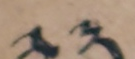༢༣
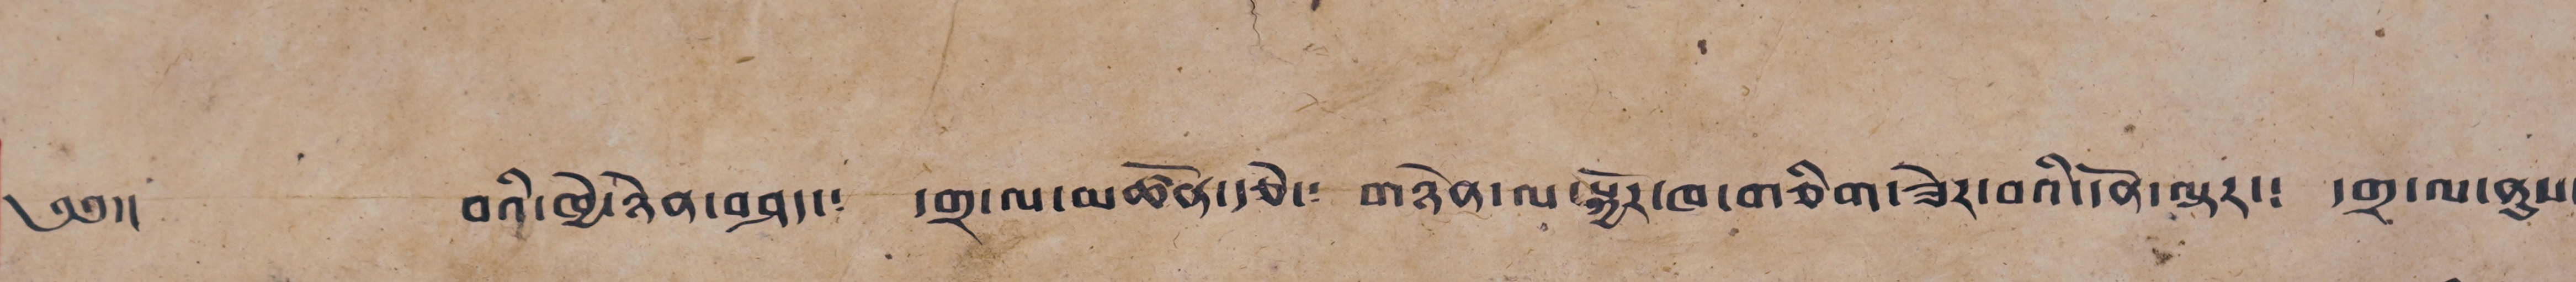༄༅།། བའི་ཁྱེ་ཉེན་བཤད་༴ དགྲ་ལ་མཚོན་རྩེ་༴ གཉེན་ལ་སྐྱོར་ཁ་གཅིག་ཟེར་བའི་དོན་ལྟར་༴ དགྲ་ལ་ནུས་
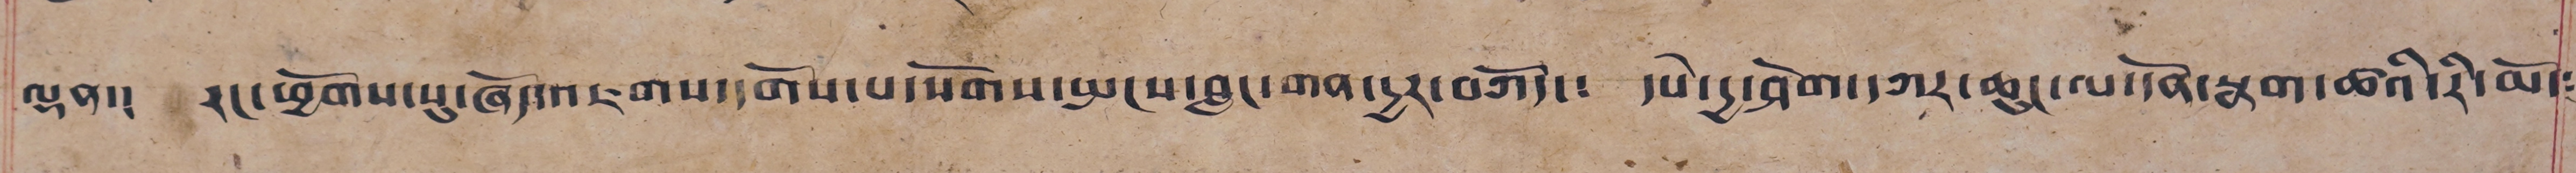ལྡན་༴ རང་ཕྱོགས་སུ་ཞོད་འཇགས་དགོས་པ་སོགས་སྤངས་བླང་གན་དྱར་བཀོད་༴ དཔེ་དྱ་ཤོག་དཀར་ཆུང་ལ་དོན་སྣག་ཚའི་རི་མོ་༴
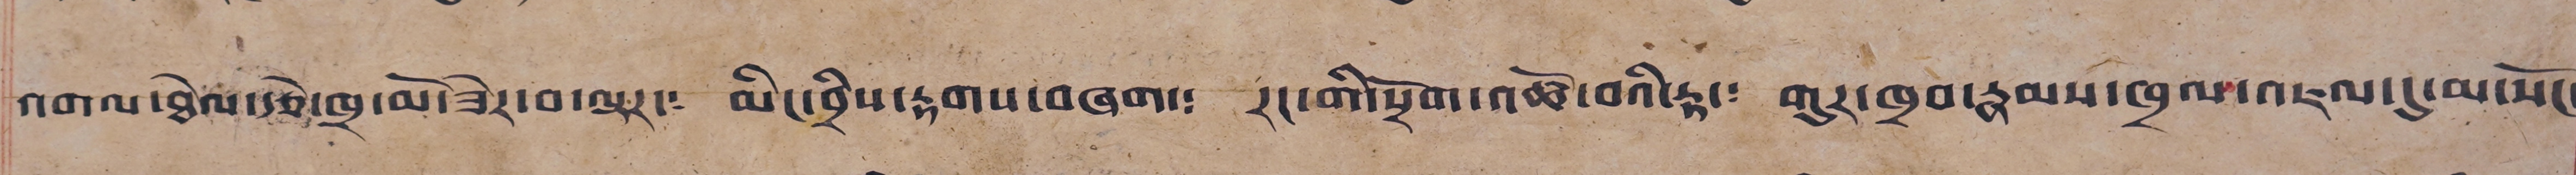འགལ་ཐེལ་རྩེ་ཁྲ་མོ་ཟེར་བ་ལྟར་༴ མིང་བྲིས་རྟགས་བཞག་༴ རང་གི་སྲོག་འཚོ་བའི་རྟ་༴ གུར་ཁྲབ་རྣམས་ཁྲལ་འཇལ་དུ་མ་ཡོང་
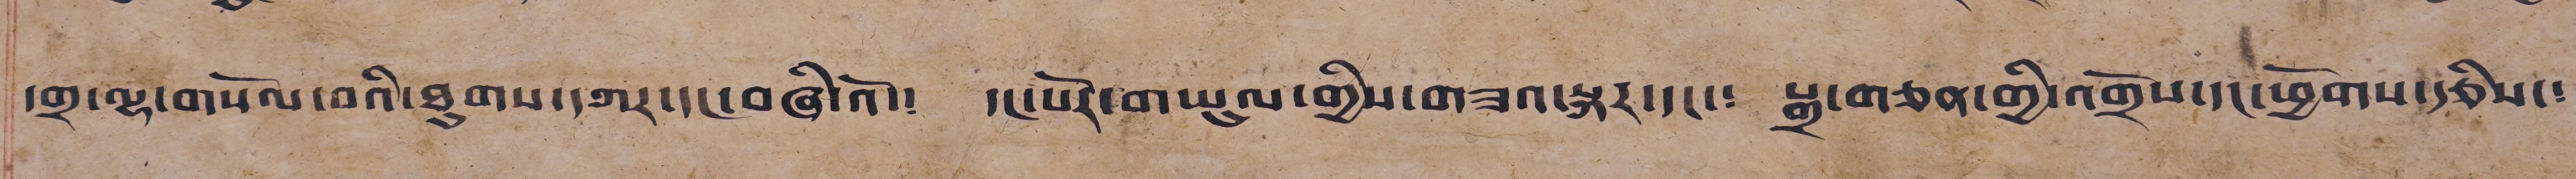དགྲ་ལྷ་གསོལ་བའི་ཐུགས་དཀར་དང་བཞིའོ་། དང་པོར་གཡུལ་གྱིས་གཟའ་སྐར་དང་༴ སྒྲ་གཅན་གྱི་འགྲོས་དང་ཕྱོགས་རྩིས་༴
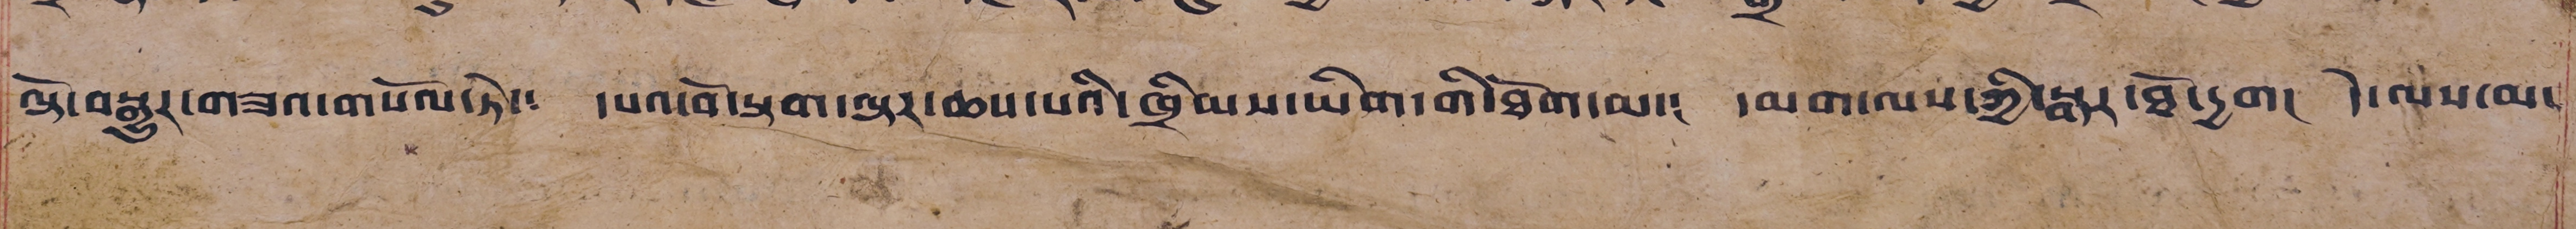ལྟེ་བསྒྱུར་གཟའ་གསོལ་ཏེ་༴ དཔའ་བོ་སྟག་ལྟར་ཆས་པའི་ཁྲིམས་ཡིག་གི་ཐོག་མ་༴ དམག་ལས་ཀྱི་སྒར་ཐོ་དྱག། དེ་ལས་མ་
